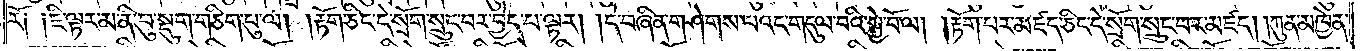རོ༑ ༑ཇི་ལྟར་མ་ནི་བུ་སྡུག་གཅིག་པུ་ལ། །རྟོག་ཅིང་དེ་སྲོག་སྲུང་བར་བྱེད་པ་ལྟར། །དེ་བཞིན་གཤེགས་པའང་གདུལ་བའི་སྐྱེ་བོ་ལ། །རྟོག་པར་མཛད་ཅིང་དེ་སྲོག་སྲུང་བར་མཛད། །ཀུན་མཁྱེན་
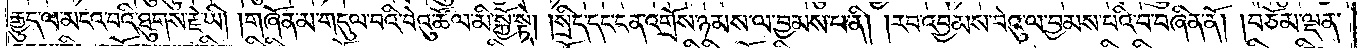རྒྱུད་ལ་མངའ་བའི་ཐུགས་རྗེ་ཡི། །གཞོན་མ་གདུལ་བའི་བེའུ་ཚོལ་མི་སྐྱོ་སྟེ། །སྲིད་དང་ངན་འགྲོས་ཉམས་ལ་བྱམས་པ་ནི། །རབ་འབྱམས་བེའུ་ལ་བྱམས་པའི་བ་བཞིན་ནོ། །བཅོམ་ལྡན་
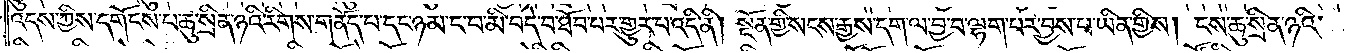འདས་ཀྱིས་དགོངས་པ་ཆུ་སྲིན་ཉའི་རིགས་གནོད་པ་དང་ཉམ་ང་བ་མི་བདེ་བ་ཐོབ་པར་གྱུར་པ་འདི་ནི། སྔོན་གྱི་སངས་རྒྱས་དག་ལ་བྱ་བ་ལྷག་པར་བྱས་པ་ཡིན་གྱིས། ངས་ཆུ་སྲིན་ཉའི་
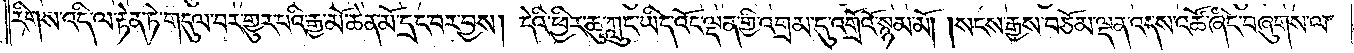རིགས་འདི་ལ་རྟེན་ཏེ་གདུལ་བར་གྱུར་པའི་རྒྱ་མོ་ཆེན་མོ་དྲང་བར་བྱས། དེའི་ཕྱིར་ཆུ་ཀླུང་ཡིད་འོང་ལྡན་གྱི་འགྲམ་དུ་འགྲོའོ་སྙམ་མོ། །སངས་རྒྱས་བཅོམ་ལྡན་འདས་འཚོ་ཞིང་བཞུགས་ལ་
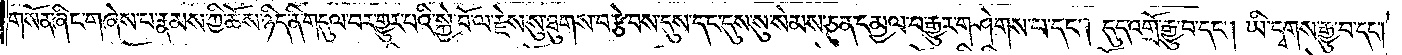གསོན་ཞིང་གཞེས་པ་རྣམས་ཀྱི་ཆོས་ཉིད་ནི་གདུལ་བར་གྱུར་པའི་སྐྱེ་བོ་ལ་རྗེས་སུ་ཐུགས་བརྩེ་བས་དུས་དང་དུས་སུ་སེམས་ཅན་དམྱལ་བ་རྒྱུར་གཤེགས་པ་དང༌། དུད་འགྲོ་རྒྱུ་བ་དང༌། ཡི་དྭགས་རྒྱུ་བ་དང༌།
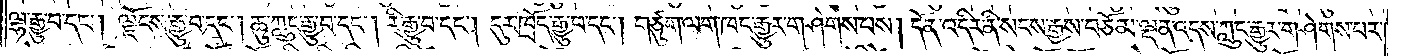ལྷ་རྒྱུ་བ་དང༌། ལྗོངས་རྒྱུ་བ་དང༌། ཆུ་ཀླུང་རྒྱུ་བ་དང༌། རི་རྒྱུ་བ་དང༌། དུར་ཁྲོད་རྒྱུ་བ་དང༌། གཙུག་ལག་ཁང་རྒྱུར་གཤེགས་པས། དོན་འདིར་ནི་སངས་རྒྱས་བཅོམ་ལྡན་འདས་ཀླུང་རྒྱུར་གཤེགས་པར་
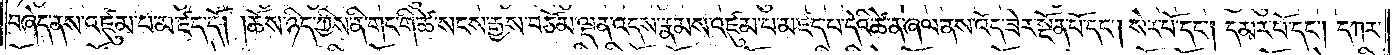བཞེད་ནས་འཛུམ་པ་མཛད་དོ། །ཆོས་ཉིད་ཀྱིས་ནི་གང་གི་ཚེ་སངས་རྒྱས་བཅོམ་ལྡན་འདས་རྣམས་འཛུམ་པ་མཛད་པ་དེའི་ཚེ་ན་ཞལ་ནས་འོད་ཟེར་སྔོན་པོ་དང༌། སེར་པོ་དང༌། དམར་པོ་དང༌། དཀར་
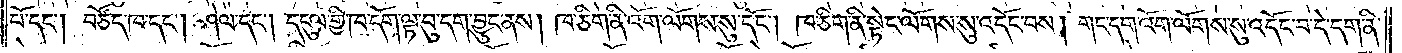པོ་དང༌། བཙོད་ཁ་དང༌། ཤེལ་དང༌། དངུལ་གྱི་ཁ་དོག་ལྟ་བུ་དག་བྱུང་ནས། ཁ་ཅིག་ནི་འོག་ལོགས་སུ་དོང༌། ཁ་ཅིག་ནི་སྟེང་ལོགས་སུ་འདོང་བས། གང་དག་འོག་ལོགས་སུ་འདོང་བ་དེ་དག་ནི་
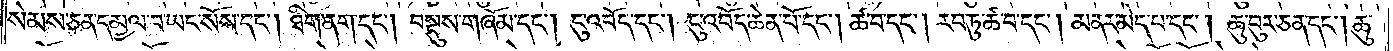སེམས་ཅན་དམྱལ་བ་ཡང་སོས་དང༌། ཐིག་ནག་དང༌། བསྡུས་གཞོམ་དང༌། ངུ་འབོད་དང༌། ངུ་འབོད་ཆེན་པོ་དང༌། ཚ་བ་དང༌། རབ་ཏུ་ཚ་བ་དང༌། མནར་མེད་པ་དང༌། ཆུ་བུར་ཅན་དང༌། ཆུ་
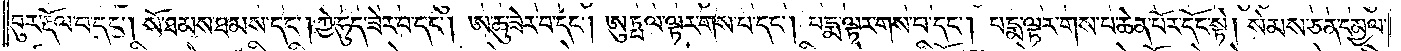བུར་རྡོལ་བ་དང༌། སོ་ཐམས་ཐམས་དང༌། ཀྱེ་ཧུད་ཟེར་བ་དང༌། ཨ་ཆུ་ཟེར་བ་དང༌། ཨུཏྤལ་ལྟར་གས་པ་དང༌། པདྨ་ལྟར་གས་པ་དང༌། པདྨ་ལྟར་གས་པ་ཆེན་པོར་དོང་སྟེ། སེམས་ཅན་དམྱལ་
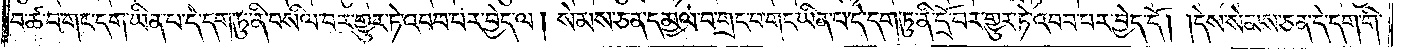བ་ཚ་བ་གང་དག་ཡིན་པ་དེ་དག་ཏུ་ནི་བསིལ་བར་གྱུར་ཏེ་འབབ་པར་བྱེད་ལ། སེམས་ཅན་དམྱལ་བ་གྲང་བ་གང་ཡིན་པ་དེ་དག་ཏུ་ནི་དྲོ་བར་གྱུར་ཏེ་འབབ་པར་བྱེད་དོ། །དེས་སེམས་ཅན་དེ་དག་གི་
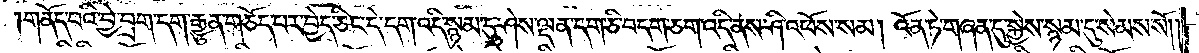གནོད་པའི་བྱེ་བྲག་དག་རྒྱུན་གཅོད་པར་བྱེད་ཅིང་དེ་དག་འདི་སྙམ་དུ་ཤེས་ལྡན་དག་ཅི་བདག་ཅག་འདི་ནས་ཤི་འཕོས་སམ། འོན་ཏེ་གཞན་དུ་སྐྱེས་སྙམ་དུ་སེམས་སོ། །
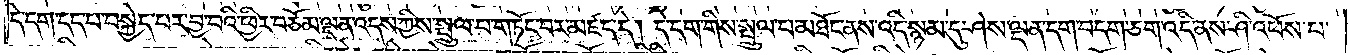དེ་དག་དད་པ་བསྐྱེད་པར་བྱ་བའི་ཕྱིར་བཅོམ་ལྡན་འདས་ཀྱིས་སྤྲུལ་པ་གཏོང་བར་མཛད་དེ། དེ་དག་གིས་སྤྲུལ་པ་མཐོང་ནས་འདི་སྙམ་དུ་ཤེས་ལྡན་དག་བདག་ཅག་འདི་ནས་ཤི་འཕོས་པ་
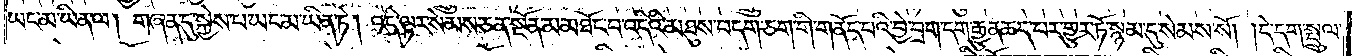ཡང་མ་ཡིན་ལ། གཞན་དུ་སྐྱེས་པ་ཡང་མ་ཡིན་ཏེ། འདི་ལྟར་སེམས་ཅན་སྔོན་མ་མཐོང་བ་འདིའི་མཐུས་བདག་ཅག་གི་གནོད་པའི་བྱེ་བྲག་དག་རྒྱུན་ཆད་པར་གྱུར་ཏོ་སྙམ་དུ་སེམས་སོ། །དེ་དག་སྤྲུལ་
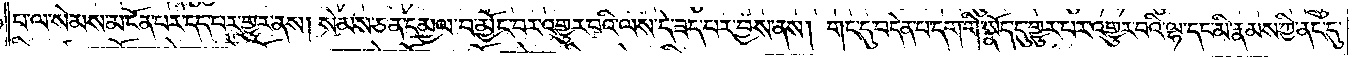པ་ལ་སེམས་མངོན་པར་དད་པར་གྱུར་ནས། སེམས་ཅན་དམྱལ་བ་མྱོང་བར་འགྱུར་བའི་ལས་དེ་ཟད་པར་བྱས་ནས། གང་དུ་བདེན་པ་དག་གི་སྣོད་དུ་གྱུར་པར་འགྱུར་བའི་ལྷ་དང་མི་རྣམས་ཀྱི་ནང་དུ་
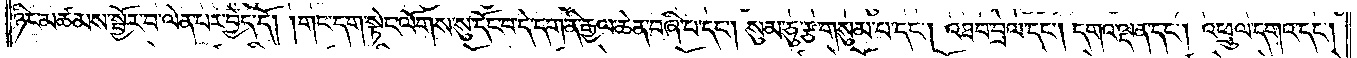ཉིང་མཚམས་སྦྱོར་བ་ལེན་པར་བྱེད་དོ། །གང་དག་སྟེང་ལོགས་སུ་དོང་བ་དེ་དག་ནི་རྒྱལ་ཆེན་བཞི་པ་དང༌། སུམ་ཅུ་རྩ་གསུམ་པ་དང༌། འཐབ་བྲལ་དང༌། དགའ་ལྡན་དང༌། འཕྲུལ་དགའ་དང༌།
